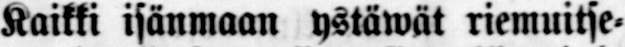Kaikki isänmaan ystäwät riemuitse-
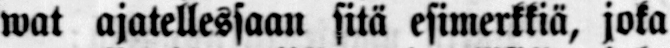wat ajatellessaan sitä esimerkkiä, joka
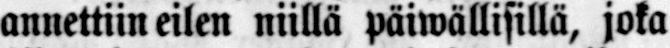annettiin eilen niillä päiwällisillä, joka
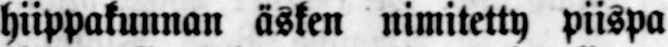hiippakunnan äsken nimitetty piispa
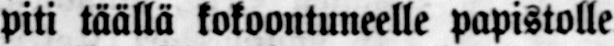piti täällä kokoontuneelle papistolle
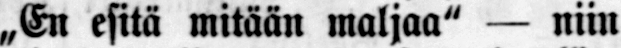„En esitä mitään maljaa" — niin
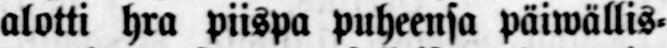alotti hra piispa puheensa päiwällis-
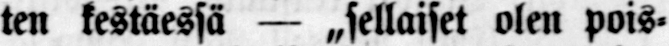ten kestäessä — „sellaiset olen pois-
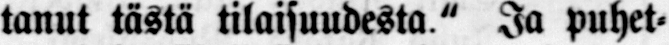tanut tästä tilaisuudesta " Ja puhet-
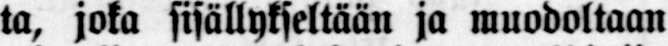ta, joka sisällykseltään ja muodoltaan
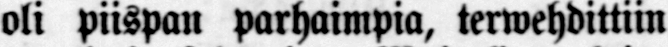oli piispan parhaimpia, terwehdittiin
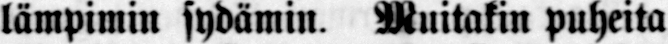lämpimin sydämin. Muitakin puheita
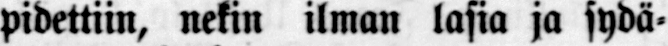pidettiin, nekin ilman lasia ja sydä-
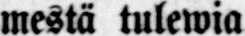mestä tulewia.
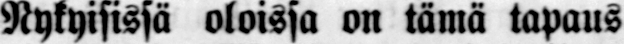Nykyisissä oloissa on tämä tapaus
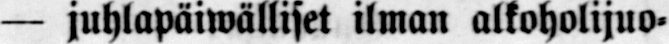— juhlapäiwälliset ilman alkoholijuo-
